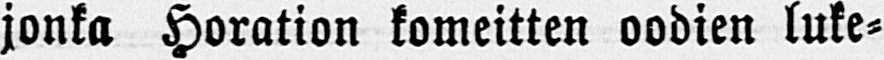jonka Horation komeitten oodien luke-
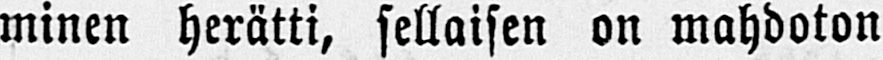minen herätti, sellaisen on mahdoton
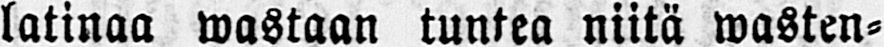latinaa wastaan tuntea niitä wasten-
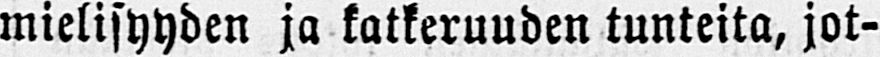mielisyyden ja katkeruuden tunteita, jot-
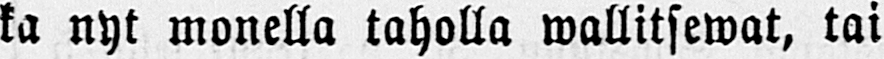ka nyt monella taholla wallitsewat, tai
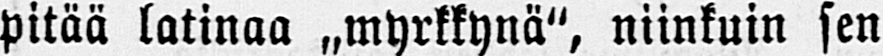pitää latinaa „myrkkyna", niinkuin sen
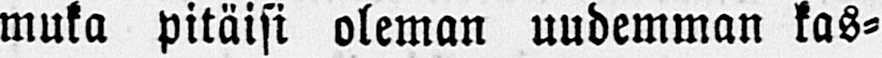muka pitäisi oleman uudemman kas-
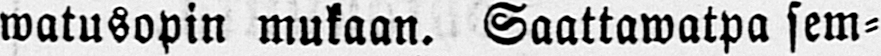watusopin mukaan. Saattawatpa sem-
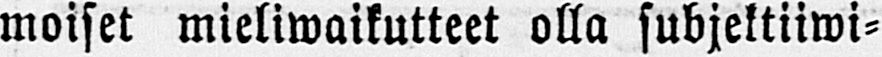moiset mieliwaikutteet olla subjektiiwi-
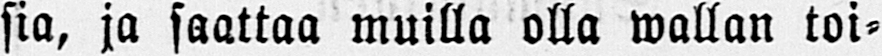sia, ja saattaa muilla olla wallan toi-
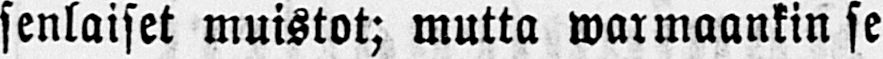senlaiset muistot; mutta warmaankin se
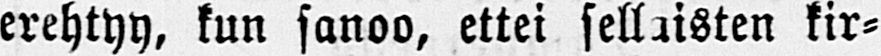erehtyy, kun sanoo, ettei sellaisten kir-
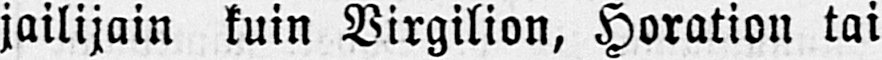jailijain kuin Virgilion, Horation tai
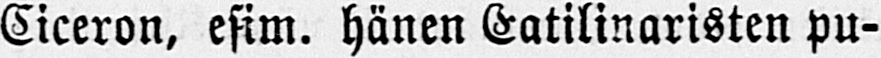Ciceron, esim. hänen Eatilinaristen pu-
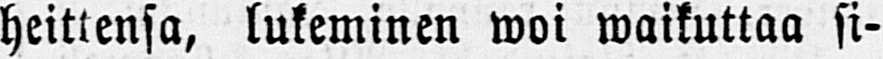heittensa, lukeminen woi waikuttaa si-
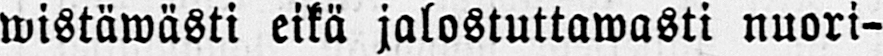wistäwästi eikä jalostuttawasti nuori-
